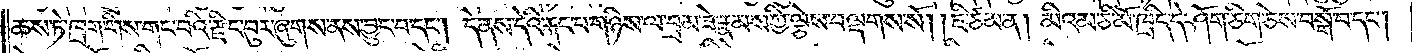ཆས་ཏེ་ཁྲག་གིས་གང་བའི་རྫིང་བུར་ཞུགས་ནས་བྱུང་བ་དང༌། དེ་ནས་དེའི་རྐང་པ་གཉིས་ལ་བྲམ་ཟེ་རྣམས་ཀྱི་ལྕེས་བལྡགས་སོ། །ཇི་ཙམ་ན། མིའམ་ཅི་མོ་ཁྲིད་དེ་ཤོག་ཅིག་ཅེས་བསྒོ་བ་དང༌།
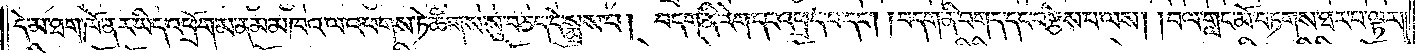དེ་མ་ཐག་ཁོ་ནར་ཡིད་འཕྲོག་མ་ནམ་མཁའ་ལ་འཕགས་ཏེ་ཚིགས་སུ་བཅད་དེ་སྨྲས་པ། བདག་ནི་རེག་དང་འཕྲད་པ་དང༌། །བདག་ནི་བགད་དང་བརྩེས་པ་ལས། །བལ་གླང་མོ་བཏགས་ཐར་པ་ལྟར༎
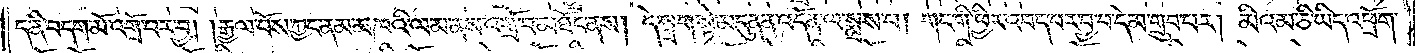ད་ནི་བདག་མོ་འགྲོ་བར་བྱ། །རྒྱལ་པོས་ཀྱང་ནམ་མཁའི་ལམ་ནས་འགྲོ་བ་མཐོང་ནས། དེ་སྐྲག་སྟེ་མདུན་ན་འདོན་ལ་སྨྲས་པ། གང་གི་ཕྱིར་འབད་པར་བྱ་བ་དེ་མ་གྲུབ་པར། མིའམ་ཅི་ཡིད་འཕྲོག་
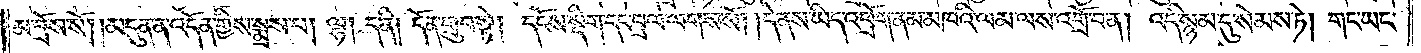མ་བྲོས་སོ། །མདུན་ན་འདོན་གྱིས་སྨྲས་པ། ལྷ། ད་ནི། དོན་གྲུབ་སྟེ། དངོས་སྡིག་དང་བྲལ་ལགས་སོ། །དེ་ནས་ཡིད་འཕྲོག་ནམ་མཁའི་ལམ་ལས་འགྲོ་བ་ན། འདི་སྙམ་དུ་སེམས་ཏེ། གང་ཡང་
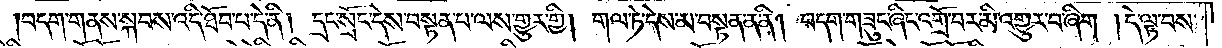བདག་གནས་སྐབས་འདི་ཐོབ་པ་དེ་ནི། དྲང་སྲོང་དེས་བསྟན་པ་ལས་གྱུར་གྱི། གལ་ཏེ་དེས་མ་བསྟན་ན་ནི། བདག་གཟུང་ཞིང་འགྲོ་བར་མི་འགྱུར་བ་ཞིག །དེ་ལྟ་བས་
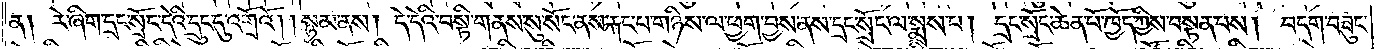ན། རེ་ཞིག་དྲང་སྲོང་དེའི་དྲུང་དུ་འགྲོའོ། །སྙམ་ནས། དེ་དེའི་བསྟི་གནས་སུ་སོང་ནས་རྐང་པ་གཉིས་ལ་ཕྱག་བྱས་ནས་དྲང་སྲོང་ལ་སྨྲས་པ། དྲང་སྲོང་ཆེན་པོ་ཁྱོད་ཀྱིས་བསྟན་པས། བདག་བཟུང་
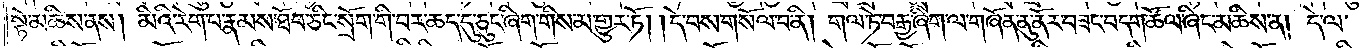སྟེ་མཆིས་ནས། མིའི་རེག་པ་རྣམས་ཐོབ་ཅིང་སྲོག་གི་བར་ཆད་དུ་ཅུང་ཞིག་གིས་མ་གྱུར་ཏོ་།དེ་བས་གསོལ་བ་ནི། གལ་ཏེ་བརྒྱ་ཞིག་ལ་གཞོན་ནུ་ནོར་བཟང་བདག་ཚོལ་ཞིང་མཆིས་ན། དེ་ལ་
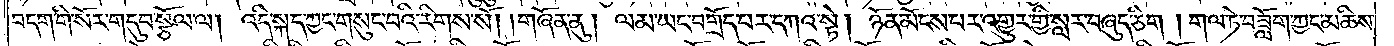བདག་གི་སོར་གདུབ་སྩོལ་ལ། འདི་སྐད་ཀྱང་གསུང་བའི་རིགས་སོ། །གཞོན་ནུ། ལམ་ཡང་བགྲོད་པར་དཀའ་སྟེ། ཉོན་མོངས་པར་འགྱུར་གྱི་སླར་བཞུད་ཅིག །གལ་ཏེ་བཟློག་ཀྱང་མཆིས་
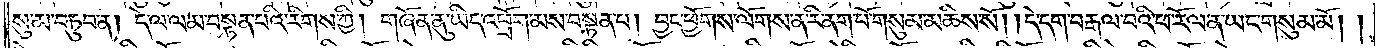སུ་མ་བཏུབ་ན། དེ་ལ་ལམ་བསྟན་པའི་རིགས་ཀྱི། གཞོན་ནུ་ཡིད་འཕྲོག་མས་བསྟན་པ། བྱང་ཕྱོགས་ལོགས་ན་རི་ནག་པོ་གསུམ་མཆིས་སོ། །དེ་དག་བརྒལ་བའི་ཕ་རོལ་ན་ཡང་གསུམ་མོ། །
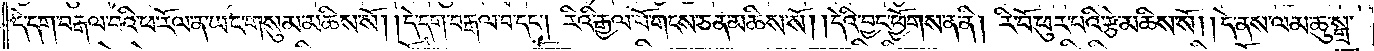དེ་དག་བརྒལ་བའི་ཕ་རོལ་ན་ཡང་གསུམ་མཆིས་སོ། །དེ་དག་བརྒལ་བ་དང༌། རིའི་རྒྱལ་པོ་གངས་ཅན་མཆིས་སོ། །དེའི་བྱང་ཕྱོགས་ན་ནི། རི་བོ་ཕུར་པའི་རྩེ་མཆིས་སོ། །དེ་ནས་ལམ་ཆུ་སྒྲ་
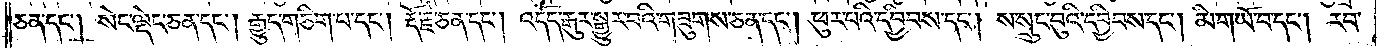ཅན་དང༌། སེང་ལྡེང་ཅན་དང༌། རྒྱུད་གཅིག་པ་དང༌། རྡོ་རྗེ་ཅན་དང༌། འདོད་རྒུར་སྒྱུར་བའི་གཟུགས་ཅན་དང༌། ཕུར་བའི་དབྱིབས་དང༌། ས་སྲུང་བུའི་དབྱིབས་དང༌། མི་གཡོ་བ་དང༌། རབ་
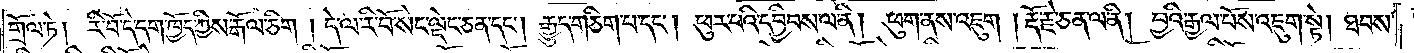གྲོལ་ཏེ། རི་བོ་དེ་དག་ཁྱོད་ཀྱིས་རྒོལ་ཅིག །དེ་ལ་རི་བོ་སེང་ལྡེང་ཅན་དང༌། རྒྱུད་གཅིག་པ་དང༌། ཕུར་པའི་དབྱིབས་ལ་ནི། ཕུག་ནས་འཇུག །རྡོ་རྗེ་ཅན་ལ་ནི། བྱའི་རྒྱལ་པོས་འཇུག་སྟེ། ཐབས་
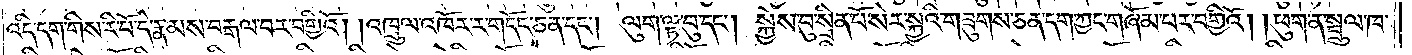འདི་དག་གིས་རི་བོ་དེ་རྣམས་བརྒལ་བར་བགྱིའོ། །འཁྲུལ་འཁོར་ར་གདོང་ཅན་དང༌། ལུག་ལྟ་བུ་དང༌། སྐྱེས་བུ་སྲིན་པོ་སེར་སྐྱའི་གཟུགས་ཅན་དག་ཀྱང་གཞོམ་པར་བགྱིའོ། །ཕུག་ན་སྦྲུལ་ཁ་
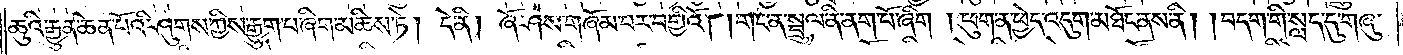ཆུའི་རྒྱུན་ཆེན་པོའི་ཤུགས་ཀྱིས་རྒྱུག་པ་ཞིག་མཆིས་ཏེ། དེ་ནི། ཞོ་ཤས་གཞོམ་པར་བགྱིའོ། །གང་ན་སྦྲུལ་ནི་ནག་པོ་ཞིག །ཕུག་ན་ཕྱེད་འདུག་མཐོང་ནས་ནི། །བདག་གི་སླད་དུ་གཞུ་
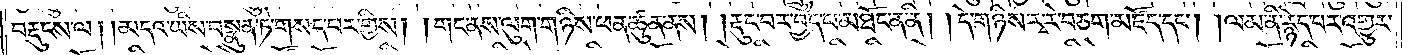བརྡུངས་ལ། །མདའ་ཡིས་བསྣུན་ཏེ་གསད་པར་གྱིས། །གང་ནས་ལུག་གཉིས་ཕན་ཚུན་ནས། །རྡུང་བར་བྱེད་པ་མཐོང་ན་ནི། །དེ་གཉིས་རྭ་རེ་བཅག་མཛོད་དང༌། །ལམ་ནི་རྙེད་པར་འགྱུར་
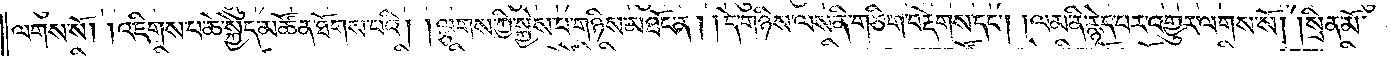ལགས་སོ། །འཇིགས་པ་ཆེ་སྐྱེད་མཚོན་ཐོགས་པའི། །ལྕགས་ཀྱི་སྐྱེས་པ་གཉིས་མཐོང་ན། །དེ་གཉིས་ལས་ནི་གཅིག་བརྡེགས་དང༌། །ལམ་ནི་རྙེད་པར་འགྱུར་ལགས་སོ། །སྲིན་མོ་
